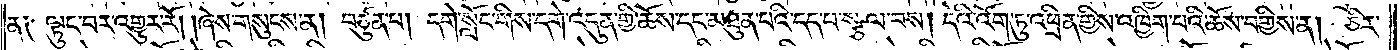ན༑ ལྟུང་བར་འགྱུར་རོ། །ཞེས་གསུངས་ན། བཙུན་པ། དགེ་སློང་གིས་དགེ་འདུན་གྱི་ཆོས་དང་མཐུན་པའི་དད་པ་སྩལ་བས། དེའི་འོག་ཏུ་འཕྲིན་གྱིས་འཁྱིག་པའི་ཆོས་བགྱིས་ན། ཅིར་
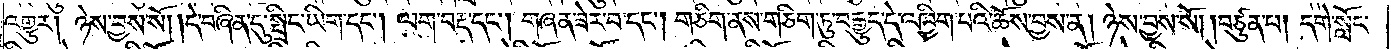འགྱུར། ཉེས་བྱས་སོ། །དེ་བཞིན་དུ་སྤྲིང་ཡིག་དང༌། ལག་བརྡ་དང༌། གཞན་ཟེར་བ་དང༌། གཅིག་ནས་གཅིག་ཏུ་བརྒྱུད་དེ་འཁྱིག་པའི་ཆོས་བྱས་ན། ཉེས་བྱས་སོ། །བཙུན་པ། དགེ་སློང་
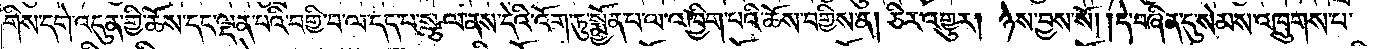གིས་དགེ་འདུན་གྱི་ཆོས་དང་ལྡན་པའི་བགྱི་བ་ལ་དད་པ་སྩལ་ནས་དེའི་འོག་ཏུ་སྨྱོན་པ་ལ་འཁྱིག་པའི་ཆོས་བགྱིས་ན། ཅིར་འགྱུར། ཉེས་བྱས་སོ། །དེ་བཞིན་དུ་སེམས་འཁྲུགས་པ་
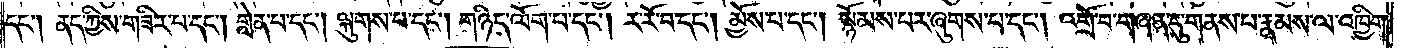དང༌། ནད་ཀྱིས་གཟིར་པ་དང༌། གླེན་པ་དང༌། ལྐུགས་པ་དང༌། གཉིད་ལོག་པ་དང༌། ར་རོ་བ་དང༌། མྱོས་པ་དང༌། སྙོམས་པར་ཞུགས་པ་དང༌། འགྲོ་བ་གཞན་དུ་གནས་པ་རྣམས་ལ་འཁྱིག་
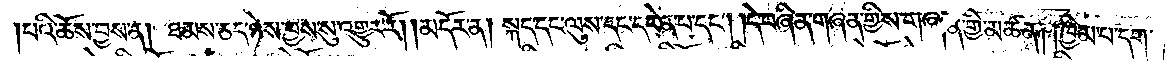པའི་ཆོས་བྱས་ན། ཐམས་ཅད་ཉེས་བྱས་སུ་འགྱུར་རོ། །མདོར་ན། སྐད་དང་ལུས་དང་དབེན་པ་དང༌། །དེ་བཞིན་གཞན་གྱིས་གཞན་གྱི་མཚན། །ཁྱིམ་པ་དག་
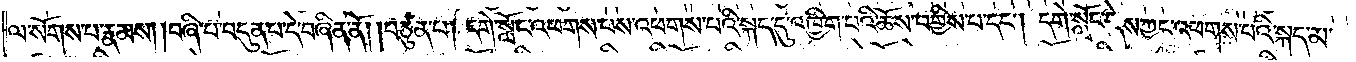ལ་སོགས་པ་རྣམས། །བཞི་པ་བདུན་པ་དེ་བཞིན་ནོ། །བཙུན་པ། དགེ་སློང་འཕགས་པས་འཕགས་པའི་སྐད་དུ་འཁྱིག་པའི་ཆོས་བགྱིས་པ་དང༌། དགེ་སློང་དེས་ཀྱང་འཕགས་པའི་སྐད་མ་
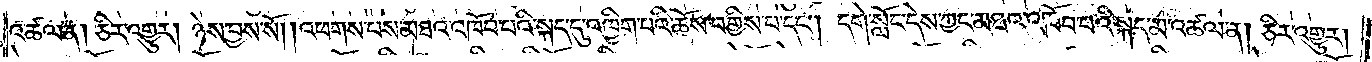འཚལ་ན། ཅིར་འགྱུར། ཉེས་བྱས་སོ། །འཕགས་པས་མཐའ་འཁོབ་པའི་སྐད་དུ་འཁྱིག་པའི་ཆོས་བགྱིས་པ་དང༌། དགེ་སློང་དེས་ཀྱང་མཐའ་འཁོབ་པའི་སྐད་མ་འཚལ་ན། ཅིར་འགྱུར།
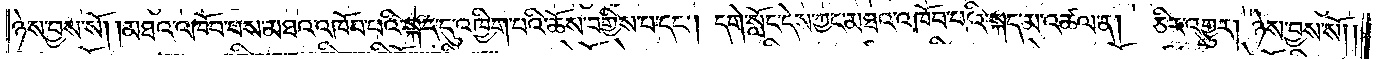ཉེས་བྱས་སོ། །མཐའ་འཁོབ་པས་མཐའ་འཁོབ་པའི་སྐད་དུ་འཁྱིག་པའི་ཆོས་བགྱིས་པ་དང༌། དགེ་སློང་དེས་ཀྱང་མཐའ་འཁོབ་པའི་སྐད་མ་འཚལ་ན། ཅིར་འགྱུར། ཉེས་བྱས་སོ༎
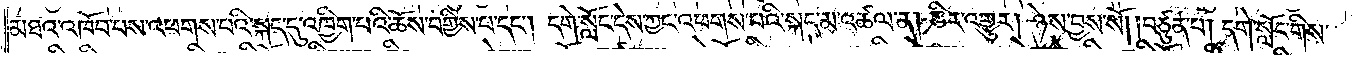མཐའ་འཁོབ་པས་འཕགས་པའི་སྐད་དུ་འཁྱིག་པའི་ཆོས་བགྱིས་པ་དང༌། དགེ་སློང་དེས་ཀྱང་འཕགས་པའི་སྐད་མ་འཚལ་ན། ཅིར་འགྱུར། ཉེས་བྱས་སོ། །བཙུན་པ། དགེ་སློང་གིས་
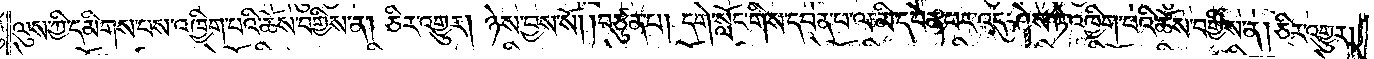ལུས་ཀྱི་དམིགས་པས་འཁྱིག་པའི་ཆོས་བགྱིས་ན། ཅིར་འགྱུར། ཉེས་བྱས་སོ། །བཙུན་པ། དགེ་སློང་གིས་དབེན་པ་ལ་མི་དབེན་པར་འདུ་ཤེས་ཏེ་འཁྱིག་པའི་ཆོས་བགྱིས་ན། ཅིར་འགྱུར།
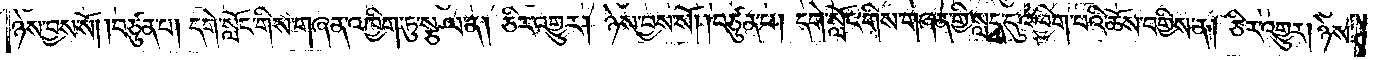ཉེས་བྱས་སོ། །བཙུན་པ། དགེ་སློང་གིས་གཞན་འཁྱིག་ཏུ་སྩལ་ན། ཅིར་འགྱུར། ཉེས་བྱས་སོ། །བཙུན་པ། དགེ་སློང་གིས་གཞན་གྱི་སླད་དུ་འཁྱིག་པའི་ཆོས་བགྱིས་ན། ཅིར་འགྱུར། ཉེས་
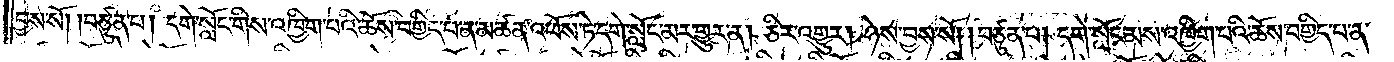བྱས་སོ། །བཙུན་པ། དགེ་སློང་གིས་འཁྱིག་པའི་ཆོས་བགྱིད་པ་ན་མཚན་འཕོས་ཏེ་དགེ་སློང་མར་གྱུར་ན། ཅིར་འགྱུར། ཉེས་བྱས་སོ། །བཙུན་པ། དགེ་སློང་མས་འཁྱིག་པའི་ཆོས་བགྱིད་པ་ན་
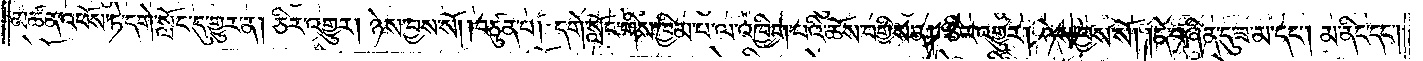མཚན་འཕོས་ཏེ་དགེ་སློང་དུ་གྱུར་ན། ཅིར་འགྱུར། ཉེས་བྱས་སོ། །བཙུན་པ། དགེ་སློང་གིས་ཁྱིམ་པ་ལ་འཁྱིག་པའི་ཆོས་བགྱིས་ན། ཅིར་འགྱུར། ཉེས་བྱས་སོ། །དེ་བཞིན་དུ་ཟ་མ་དང༌། མ་ནིང་དང༌།
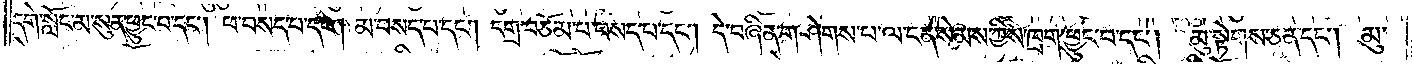དགེ་སློང་མ་སུན་ཕྱུང་བ་དང༌། ཕ་བསད་པ་དང༌། མ་བསད་པ་དང༌། དགྲ་བཅོམ་པ་བསད་པ་དང༌། དེ་བཞིན་གཤེགས་པ་ལ་ངན་སེམས་ཀྱིས་ཁྲག་ཕྱུང་བ་དང༌།   མུ་སྟེགས་ཅན་དང༌། མུ་
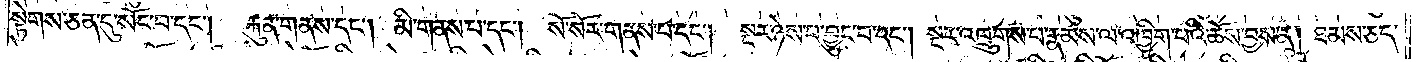སྟེགས་ཅན་དུ་སོང་བ་དང༌། རྐུན་གནས་དང༌། མི་གནས་པ་དང༌། སོ་སོར་གནས་པ་དང༌།    སྔར་ཉེས་པ་བྱུང་བ་དང༌། སྔར་འཁྲུགས་པ་རྣམས་ལ་འཁྱིག་པའི་ཆོས་བྱས་ན། ཐམས་ཅད་
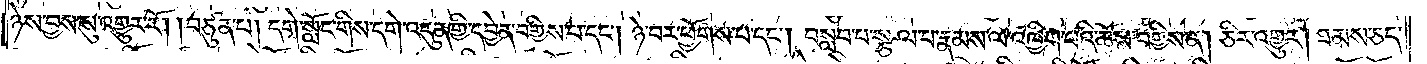ཉེས་བྱས་སུ་འགྱུར་རོ། །བཙུན་པ། དགེ་སློང་གིས་དགེ་འདུན་གྱི་དབྱེན་བགྱིས་པ་དང༌། ཉེ་བར་ཕྱོགས་པ་དང༌། བསླབ་པ་སྩལ་པ་རྣམས་ལ་འཁྱིག་པའི་ཆོས་བགྱིས་ན། ཅིར་འགྱུར། ཐམས་ཅད་
